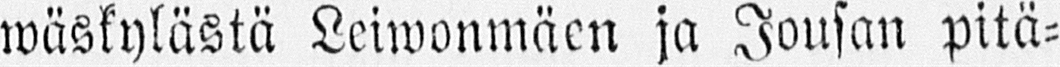wäskylästä Leiwonmäen ja Jousan pitä-
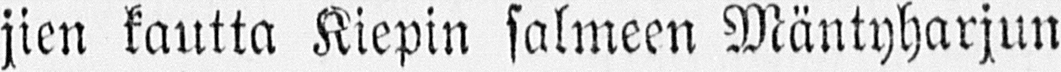jien kautta Kiepin salmeen Mäntyharjun
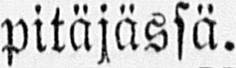pitäjässä.
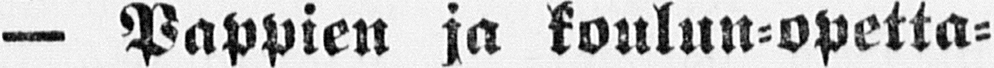— Pappien ja koulun-opetta-
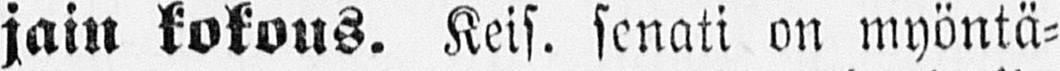jain kokous. Keis. senati on myöntä-
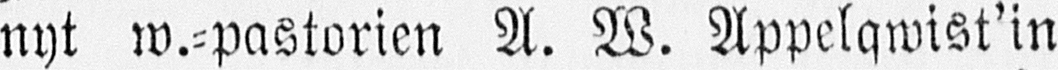nyt w.-pastorien A. W. Appelqwist'in
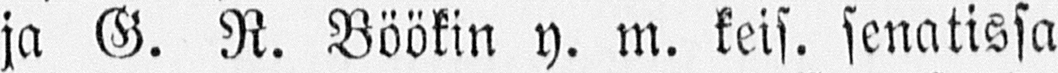ja G. R. Böökin y. m. keis. senatissa
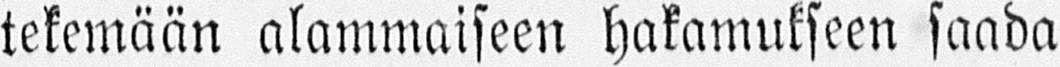tekemään alammaiseen hakamukseen saada
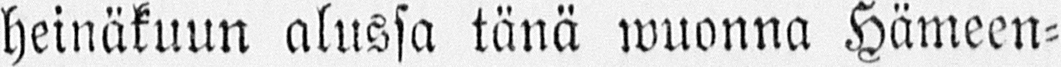heinäkuun alussa tänä wuonna Hämeen-
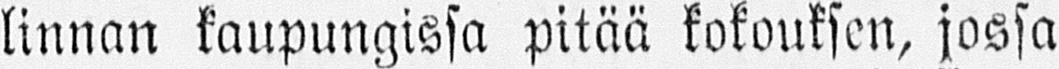linnan kaupungissa pitää kokouksen, jossa
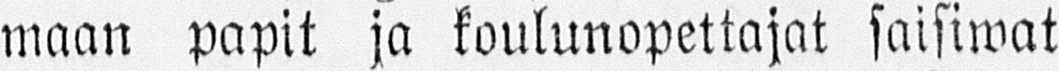maan papit ja koulunopettajat saisiwat
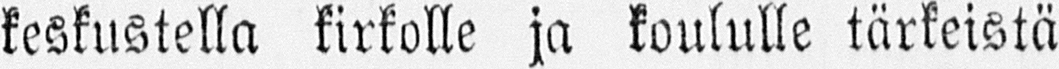keskustella kirkolle ja koululle tärkeistä
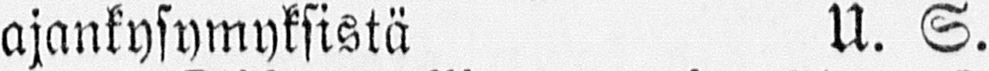ajankysymyksistä U. S.
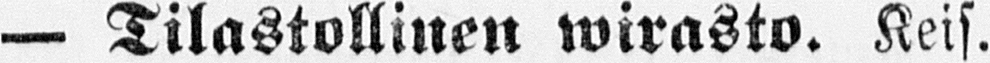— Tilastollinen wirasto. Keis.
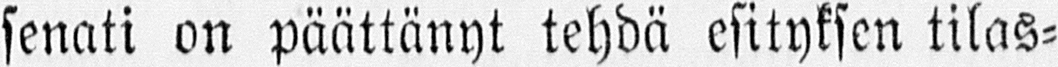senati on päättänyt tehdä esityksen tilas-
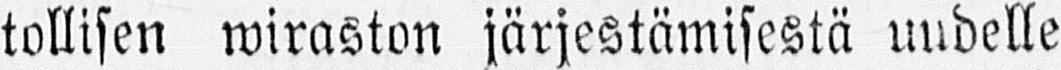tollisen wiraston järjestämisestä uudelle
